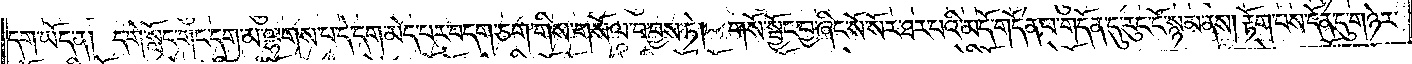དག་ཡོད་ན། དགེ་སློང་གང་དག་མ་ལྷགས་པ་དེ་དག་མེད་པར་བདག་ཅག་གིས་གསོལ་བ་བྱས་ཏེ། གསོ་སྦྱོང་བྱ་ཞིང་སོ་སོར་ཐར་པའི་མདོ་གདོན་པ་གདོན་དུ་རུང་ངོ་སྙམ་ནས། རྟོག་པས་དོན་དུ་གཉེར་
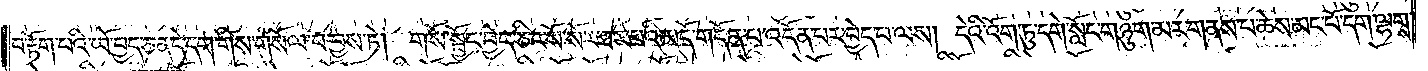བ་རྟོག་པའི་ཡོ་བྱད་ཅན་དེ་དག་གིས་གསོལ་བ་བྱས་ཏེ། གསོ་སྦྱོང་བྱེད་ཅིང་སོ་སོར་ཐར་པའི་མདོ་གདོན་པ་འདོན་པར་བྱེད་པ་ལས། དེའི་འོག་ཏུ་དགེ་སློང་གཉུག་མར་གནས་པ་ཆེས་མང་པོ་དག་ལྷགས་
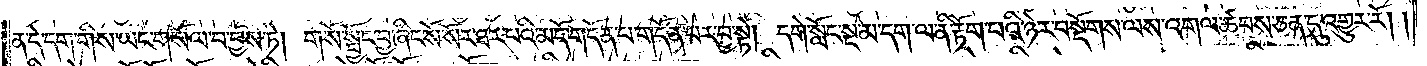ན་དེ་དག་གིས་ཡང་གསོལ་བ་བྱས་ཏེ། གསོ་སྦྱོང་བྱ་ཞིང་སོ་སོར་ཐར་པའི་མདོ་གདོན་པ་གདོན་པར་བྱ་སྟེ། དགེ་སློང་སྔ་མ་དག་ལ་ནི་རྟོག་པའི་ཉེར་བསྡོགས་ལས་འགལ་ཚབས་ཅན་དུ་འགྱུར་རོ། །
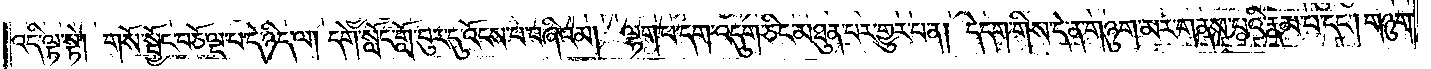འདི་ལྟ་སྟེ། གསོ་སྦྱོང་བཅོ་ལྔ་པ་དེ་ཉིད་ལ། དགེ་སློང་གློ་བུར་དུ་འོངས་པ་བཞིའམ། ལྷག་པ་དག་འདུག་ཅིང་མཐུན་པར་གྱུར་པ་ན། དེ་དག་གིས་དེ་ན་གཉུག་མར་གནས་པའི་རྣམ་པ་དང༌། གཉུག་
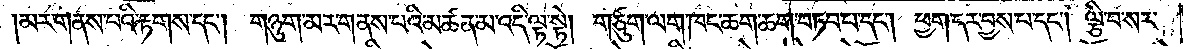མར་གནས་པའི་རྟགས་དང༌། གཉུག་མར་གནས་པའི་མཚན་མ་འདི་ལྟ་སྟེ། གཙུག་ལག་ཁང་ཆག་ཆག་བཏབ་པ་དང༌། ཕྱག་དར་བྱས་པ་དང༌། ལྕི་བ་སར་
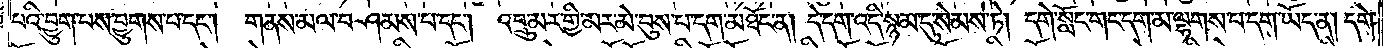པའི་བྱུག་པས་བྱུགས་པ་དང༌། གནས་མལ་བཤམས་པ་དང༌། འབྲུ་མར་གྱི་མར་མེ་བུས་པ་དག་མཐོང་ན། དེ་དག་འདི་སྙམ་དུ་སེམས་ཏེ། དགེ་སློང་གང་དག་མ་ལྷགས་པ་དག་ཡོད་ན། དགེ་
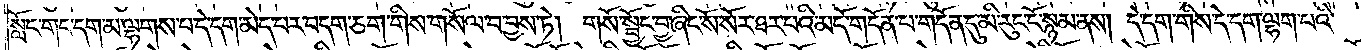སློང་གང་དག་མ་ལྷགས་པ་དེ་དག་མེད་པར་བདག་ཅག་གིས་གསོལ་བ་བྱས་ཏེ། གསོ་སྦྱོང་བྱ་ཞིང་སོ་སོར་ཐར་པའི་མདོ་གདོན་པ་གདོན་དུ་མི་རུང་ངོ་སྙམ་ནས། དེ་དག་གིས་དེ་དག་ལྷག་པའི་
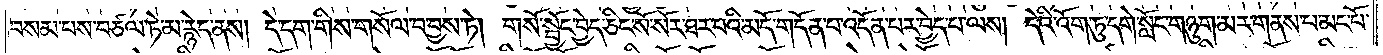བསམ་པས་བཙལ་ཏེ་མ་རྙེད་ནས། དེ་དག་གིས་གསོལ་བ་བྱས་ཏེ། གསོ་སྦྱོང་བྱེད་ཅིང་སོ་སོར་ཐར་པའི་མདོ་གདོན་པ་འདོན་པར་བྱེད་པ་ལས། དེའི་འོག་ཏུ་དགེ་སློང་གཉུག་མར་གནས་པ་མང་པོ་
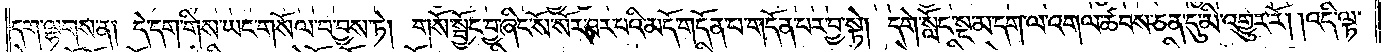དག་ལྷགས་ན། དེ་དག་གིས་ཡང་གསོལ་བ་བྱས་ཏེ། གསོ་སྦྱོང་བྱ་ཞིང་སོ་སོར་ཐར་པའི་མདོ་གདོན་པ་གདོན་པར་བྱ་སྟེ། དགེ་སློང་སྔ་མ་དག་ལ་འགལ་ཚབས་ཅན་དུ་མི་འགྱུར་རོ། །འདི་ལྟ་
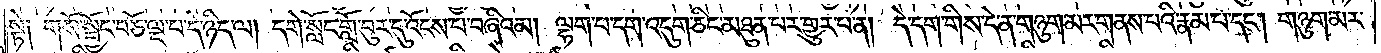སྟེ༏ གསོ་སྦྱོང་བཅོ་ལྔ་པ་དེ་ཉིད་ལ། དགེ་སློང་གློ་བུར་དུ་འོངས་པ་བཞིའམ། ལྷག་པ་དག་འདུག་ཅིང་མཐུན་པར་གྱུར་པ་ན། དེ་དག་གིས་དེ་ན་གཉུག་མར་གནས་པའི་རྣམ་པ་དང༌། གཉུག་མར་
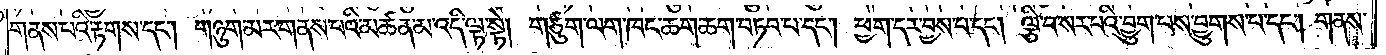གནས་པའི་རྟགས་དང༌། གཉུག་མར་གནས་པའི་མཚན་མ་འདི་ལྟ་སྟེ། གཙུག་ལག་ཁང་ཆག་ཆག་བཏབ་པ་དང༌། ཕྱག་དར་བྱས་པ་དང༌། ལྕི་བ་སར་པའི་བྱུག་པས་བྱུགས་པ་དང༌། གནས་
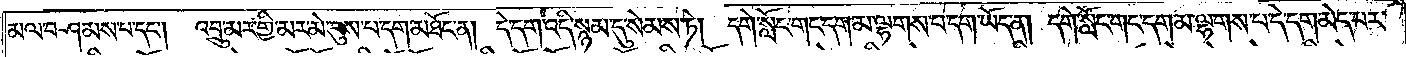མལ་བཤམས་པ་དང༌། འབྲུ་མར་གྱི་མར་མེ་བུས་པ་དག་མཐོང་ན། དེ་དག་འདི་སྙམ་དུ་སེམས་ཏེ།  དགེ་སློང་གང་དག་མ་ལྷགས་པ་དག་ཡོད་ན། དགེ་སློང་གང་དག་མ་ལྷགས་པ་དེ་དག་མེད་པར་
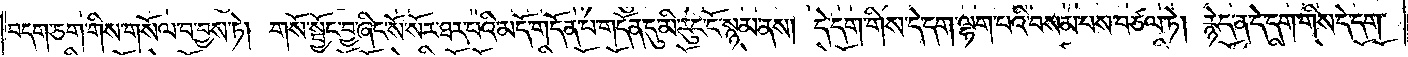བདག་ཅག་གིས་གསོལ་བ་བྱས་ཏེ། གསོ་སྦྱོང་བྱ་ཞིང་སོ་སོར་ཐར་པའི་མདོ་གདོན་པ་གདོན་དུ་མི་རུང་ངོ་སྙམ་ནས། དེ་དག་གིས་དེ་དག་ལྷག་པའི་བསམ་པས་བཙལ་ཏེ། རྙེད་ན་དེ་དག་གིས་དེ་དག་
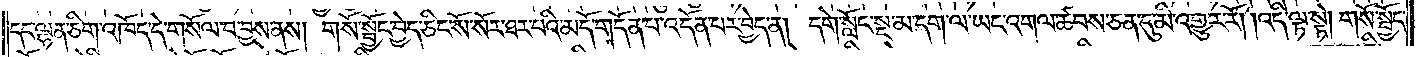དང་ལྷན་ཅིག་འཁོད་དེ་གསོལ་བ་བྱས་ནས། གསོ་སྦྱོང་བྱེད་ཅིང་སོ་སོར་ཐར་པའི་མདོ་གདོན་པ་འདོན་པར་བྱེད་ན། དགེ་སློང་སྔ་མ་དག་ལ་ཡང་འགལ་ཚབས་ཅན་དུ་མི་འགྱུར་རོ། །འདི་ལྟ་སྟེ། གསོ་སྦྱོང་
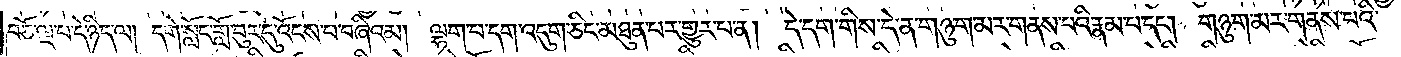བཅོ་ལྔ་པ་དེ་ཉིད་ལ། དགེ་སློང་གློ་བུར་དུ་འོངས་པ་བཞིའམ། ལྷག་པ་དག་འདུག་ཅིང་མཐུན་པར་གྱུར་པ་ན། དེ་དག་གིས་དེ་ན་གཉུག་མར་གནས་པའི་རྣམ་པ་དང༌། གཉུག་མར་གནས་པའི་
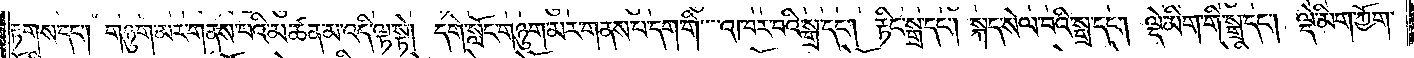རྟགས་དང༌། གཉུག་མར་གནས་པའི་མཚན་མ་འདི་ལྟ་སྟེ། དགེ་སློང་གཉུག་མར་གནས་པ་དག་གི་འཁར་བའི་སྒྲ་དང༌། རྟིང་སྒྲ་དང༌། སྐད་སེལ་བའི་སྒྲ་དང༌། ལྡེ་མིག་གི་སྒྲ་དང༌། ལྡེ་མིག་ཀྱོག་
